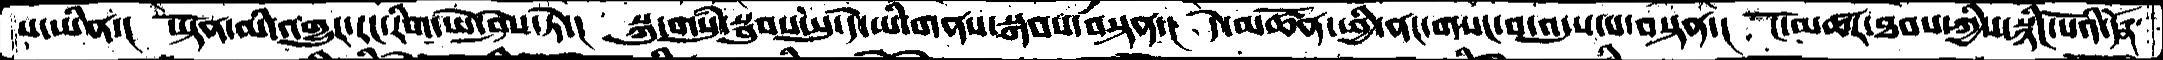པ་ཡིན་།  ཡྟོན་མི་འགྱུར་རང་རིག་ཡེ་ཤེས་ཏེ་།  སྐུ་གསུཾ་སྦུབས་སུ་དེ་ཡི་གནས་སྐབས་བསྟན་།  དེ་མཚོན་ཕྱི་ནང་གསང་བ་འདུས་པ་བསྟན་།  ངོ་མཚར་ཐབས་ཀྱིས་སྙིང་པོའི་དོན་
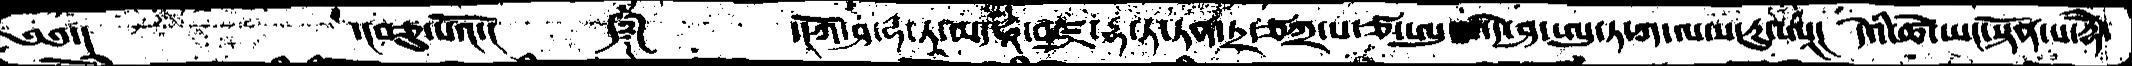༄༅་།       ་།བཅུ་པའོ་།    ༼༈༽   ་།ཀོ་ཤ་དྷ་ཏཱ་མ་ཧཱ་བཛྲ་དྷ་ཏ་ཏན་ཏྲ་ཙཀྲ་པ་ཙ་ཨུ་དེ་ཤ་ཨུ་ཏ་ཀ་ལ་ས་ཏུ་ཨཱ། དེའི་ཚེ་ཡང་སྟོན་པ་རྡོེ་
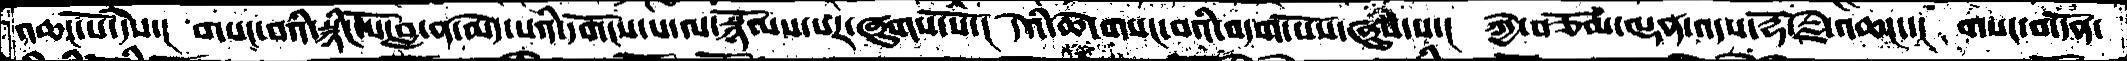འཆང་པོ་དེས་།  གསང་བའི་སྙིང་པོ་བླ་ན་མེད་པའི་དགོངས་པ་ལ་སྙོམས་པར་ཞུགས་སོ་།  དེའི་ཆེ་གསང་བའི་བདག་པོས་ཞུས་པ་།  ཀྱེ་བཅོམ་ལྡན་འདས་རྡོ་རྗེ་འཆང་་།  གསང་བ་དོན་
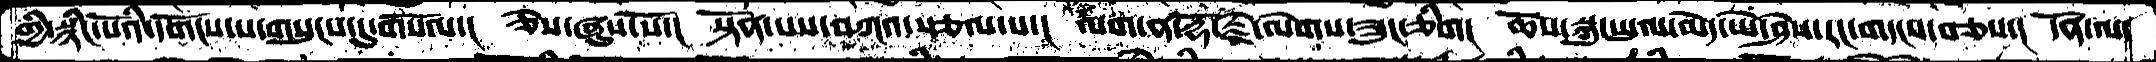གྱི་སྙིང་པོའི་དགོངས་པ་གསུངས་དུ་གསོལ་།  ཅེས་ཞུས་སོ་།  སྟོན་པས་བཀའ་སྩལ་པ་།  ལག་ན་རྡོ་རྗེ་ལེགས་ཟུང་ཅིག།  ཆོས་སྐུ་ཡུལ་མེད་ཡེ་ཤེས་རང་གདངས་བཅས་། དོན་ལ་
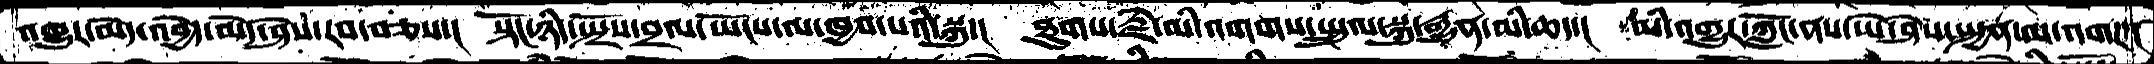འགྱུར་མེད་འབྱེད་མེད་ཤེས་རབ་བཅས་།  སྟོང་ཉིད་སྤྲོས་བྲལ་ཡོངས་ལ་ཁྱབ་པའི་སྐུ་།  ཐུགས་རྗེ་མི་འགགས་སྤྲུལ་སྐུ་རྒྱུན་མི་ཆད་།  མི་འགྱུར་ཀློང་ནས་ཡེ་ཤེས་སྤྱན་མ་འགཌ་།
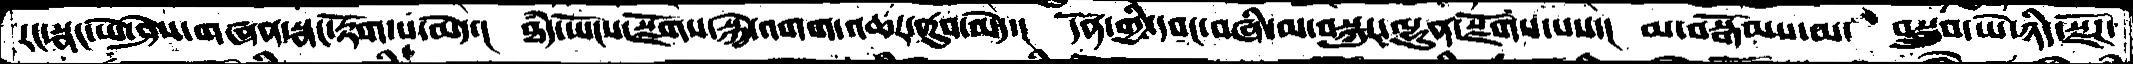རང་སྣང་ཡེ་ཤེས་གཞན་སྣང་རྟོག་པ་མེད་།  ཐཾད་ཡོངས་སྫོགས་སྐྱེ་འགག་འཆར་ནུབ་མེད་།  དོན་གྱི་དབང་བཞི་མ་བསྐུར་ལྷུན་སྫོགས་པས་།  མ་བསྒོམས་མ་  བསྒྲུབ་ཡེ་ཉིད་སྫོཌ་
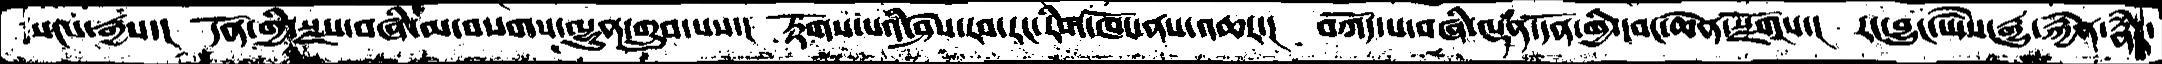སངས་རྒྱས་།  དོན་གྱི་སྫས་བཞི་མ་བསགས་ལྷུན་གྲུབ་པས་།  རྟོགས་པའི་ཤེས་རབ་རང་རིག་ཁོང་ནས་འཆར་།  བཀོད་པ་བཞི་ལྡན་དོན་གྱི་དབང་ཆེན་སྫོགས་།  རང་བྱུང་ཡཻས་རྒྱུ་རྐྱེན་རྣཾར་
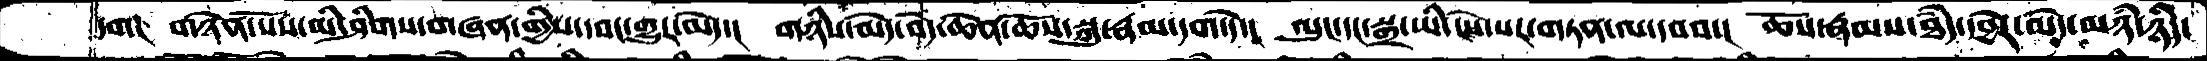དག།  གཉེས་པོས་མི་ཤིགས་གཞན་གྱིས་དབང་གྱུར་མེད་།   གཉིས་མེད་བདེ་ཆེན་ཆོས་སྐུ་རྣམ་དག་དེ་།  ལུང་དང་སྒྲ་ཡི་ངེས་པར་གཏན་ལ་དབབ་།  ཆོས་རྣམས་ཐཾད་དབྱེར་མེད་མཉཾ་ཉིད་
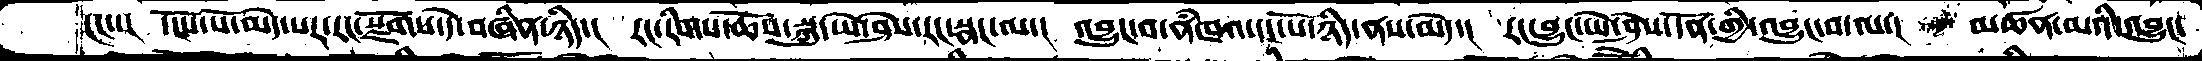ངང་་།  དངོས་པོ་མེད་པར་རང་སྫོགས་དེ་བཞིན་ཉིད་།  རང་རིགས་ཆོས་སྐུ་ཡེ་ཤེས་རང་སྣང་ལ་།  འབྱུང་བ་ནཾཁའ་དང་པོ་ཉིད་ནས་མེད་།  རང་བྱུང་ཡེ་ཤེས་དོན་གྱི་འབྱུང་བ་ལ་།  མཚན་མའི་འབྱུང་
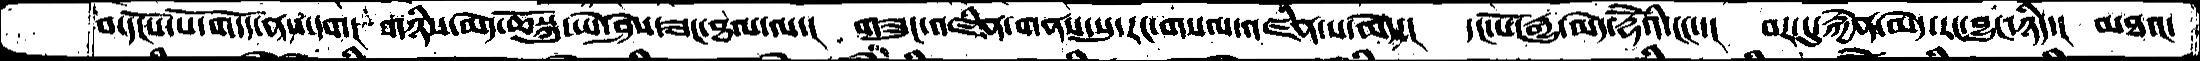བ་དངོས་པོ་གོདད་ནས་དག།  གཉིས་མེད་ཆོསྐུ་ཡེ་ཤེས་ཟང་ཐལ་ལ་།  གཟུང་འཛིན་གནས་སུ་རང་གསལ་འཛིན་པ་མེད་།  དང་པོ་རྒྱུ་མེད་རྡོེའི་ངང་་།  བར་དུ་རྐྱེན་མེད་རང་བྱུང་ཉིད་།  མཐའ་
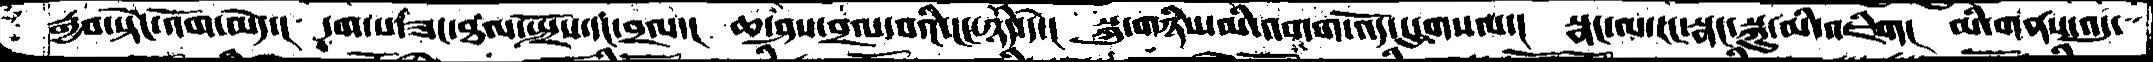རྒྱབ་སྟེང་འོག་མེད་། དག་པ་ཟང་ཐལ་སྤྲོས་དང་བྲལ་། ཆ་ཤས་བྲལ་བའི་ངང་ཉིད་དེ་། སྐུ་གཉིས་མི་འགག་འོད་དུ་གསལ་། སྣང་ལ་རང་སྣང་སྐུ་མི་འཇིག། མི་གནས་འདུ་་
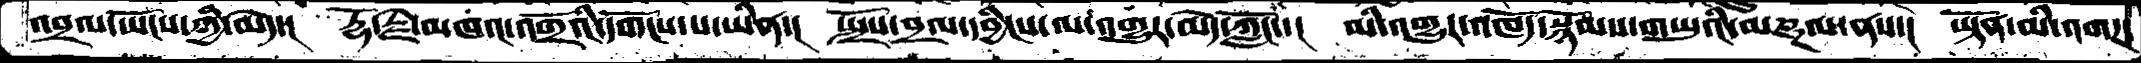འབྲལ་ཡོངས་ཀྱི་མེད་།  རྡོ་རྗེ་མཁའ་འགྲོའི་དགོངས་པ་ཡིན་།  སྤྲོས་བྲལ་དབྱིངས་ལ་འགྱུར་མེད་ཀློང་་།  མི་འགྱུར་འཁོད་སྙོམས་གཡུའི་མཎྜལ་ནས་། ཡྟོན་མི་འགཌ་
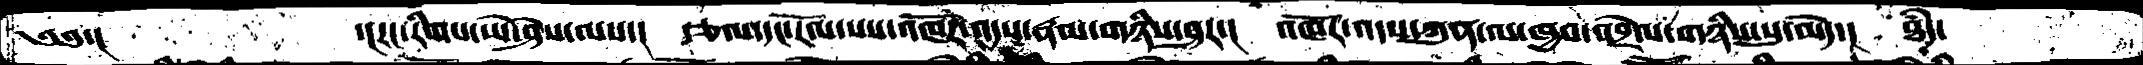༄༅་།        ་།རང་རིག་ཡེ་ཤེས་ལས་།  རྩལ་དང་རོལ་པས་འཁོར་འདས་རྣམ་གཉིས་ཤར་།    འཁོར་འདས་ཀུན་ལ་ཁྱབ་འབྲེལ་གཉིས་སུ་མེད་།  ཐཾད་
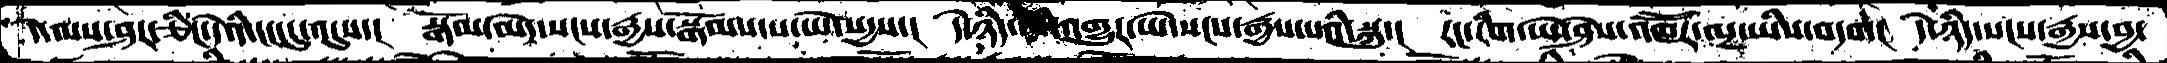དེ་ལས་ཤར་ཅིང་དེའི་ངང་དུ་འདུས་། སྒོམ་མེད་སངས་རྒྱས་སྒོམས་པ་ཡེ་སདྱས་། དེ་ཉིད་མི་འགྱུར་ཡེ་སངས་རྒྱས་པའི་སྐུ་། རང་རིག་ཡེ་ཤེས་འཁཽར་ལྷ་ཡིས་བདག། དེ་ཉིད་སངས་རྒྱས་བྱ་
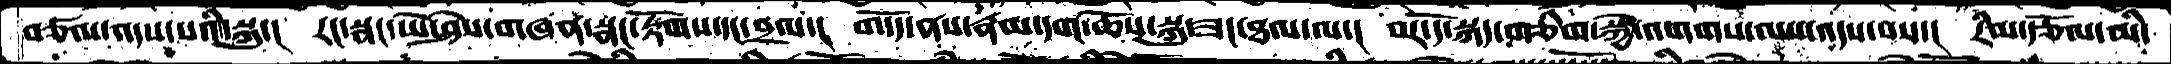བཙལ་འདས་པའི་སྐུ་།  རང་སྣང་ཡེ་ཤེས་གཞན་སྣང་རྟོགས་དང་བྲལ་།  གདོད་ནས་རྣམ་དག་ཆོས་སྐུ་ཟང་ཐལ་ལ་།  བར་དོ་སྐད་གཅིག་སྐྱེ་འགགས་ལས་འདས་བས་།  རིམ་རྩོལ་མི་
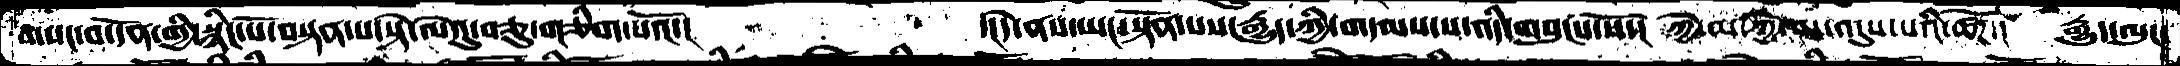གསང་བ་དོན་གྱི་སྙིང་པོ་བསྟན་པ་སྟེ་ལེའུ་བཅུ་གཅིག་པའོ་།      ་།དེ་ནས་ཡང་སྟོན་པས་རྒྱུད་ཀྱི་གདམས་པ་འདི་གསུངས་སོ་།  ཀྱེ་མ་ཀྱེ་མ་འདུས་པའི་ཚོཌ་།  རྒྱུད་ལུང་
